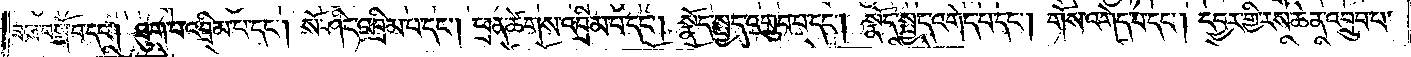ཟས་བསྒོ་བ་དང༌། ཐུག་པ་འབྲིམ་པ་དང༌། སོ་ཤིང་འབྲིམ་པ་དང༌། ཕྲན་ཚེགས་འབྲིམ་པ་དང༌། སྣོད་སྤྱད་འགྲུབ་པ་དང༌། སྣོད་སྤྱད་འགེད་པ་དང༌། གོས་འགེད་པ་དང༌། དབྱར་གྱི་རས་ཆེན་འབྲུབ་པ་
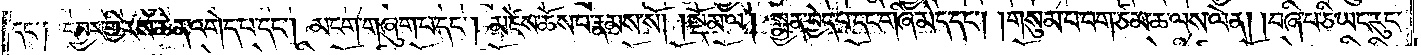དང༌། དབྱར་གྱི་རས་ཆེན་འགེད་པ་དང༌། མངག་གཞུག་པ་དང༌། མཛེས་ཆོས་པ་རྣམས་སོ།    །སྡོམ་ལ། སྨྱན་བྱེད་པ་དང་གཞི་མེད་དང༌། གསུམ་པ་བག་ཙམ་ཆ་ལས་ལེན། །བཞི་པ་ཅི་ཡང་རུང་
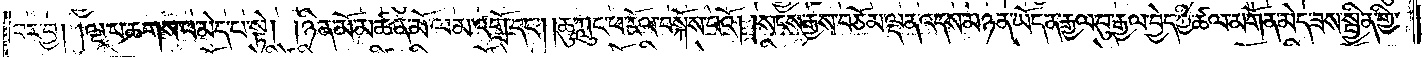བར་བྱ། །ལྔ་པ་ཆགས་པ་མེད་པ་སྟེ། །ཉིན་མོ་མཚན་མོ་ལམ་འགྲོ་དང༌། །ཆུ་ཀླུང་ཕ་རོལ་བསྐོས་པའོ།    །སངས་རྒྱས་བཅོམ་ལྡན་འདས་མཉན་ཡོད་ན་རྒྱལ་བུ་རྒྱལ་བྱེད་ཀྱི་ཚལ་མགོན་མེད་ཟས་སྦྱིན་གྱི་
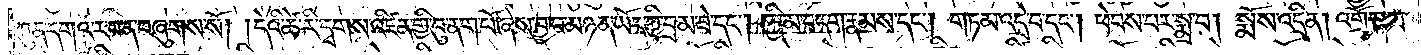ཀུན་དགའ་ར་བ་ན་བཞུགས་སོ། །དེའི་ཚེ་རི་དྭགས་འཛིན་གྱི་བུ་ནག་པོ་ཞེས་བྱ་བ་མཉན་ཡོད་ཀྱི་བྲམ་ཟེ་དང༌། ཁྱིམ་བདག་རྣམས་དང༌། གཏམ་འདྲེ་བ་དང༌། ཕེབས་པར་སྨྲ་བ། སྨོས་འདྲི་ན། འགྲོགས་
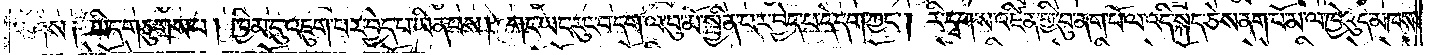བཤེས། ཡིད་གཅུགས་པ། ཁྱིམ་དུ་འཇུག་པར་བྱེད་པ་ཡིན་པས། གང་ཡང་རུང་བ་དག་ལ་བུ་མོ་སྦྱིན་པར་བྱེད་པ་དེ་དག་ཀྱང༌། རི་དྭགས་འཛིན་གྱི་བུ་ནག་པོ་ལ་འདི་སྐད་ཅེས་ནག་པོ་མ་ལ་ཁྱེའུ་དེ་མཁས་
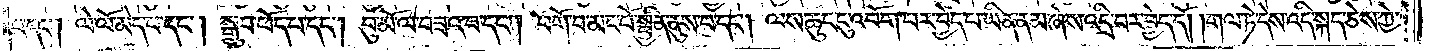པ་དང༌། ལེ་ལོ་མེད་པ་དང༌། སྒྲུབ་ཕོད་པ་དང༌། བུ་མོ་ལ་བཟའ་བ་དང༌། བགོ་བ་མང་པོ་སྤྱིན་ནུས་པ་དང༌། ལས་ཆུང་ངུ་འབོག་པར་བྱེད་པ་ཡིན་ནམ་ཞེས་འདྲི་བར་བྱེད་དོ། །གལ་ཏེ་དེས་འདི་སྐད་ཅེས་ཀྱི་
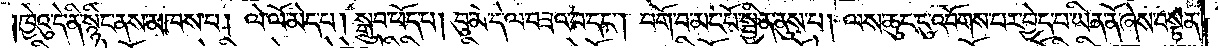ཁྱེའུ་དེ་ནི་སྙིང་ནས་མཁས་པ། ལེ་ལོ་མེད་པ། སྒྲུབ་ཕོད་པ། བུ་མོ་དེ་ལ་བཟའ་བ་དང༌། བགོ་བ་མང་པོ་སྦྱིན་ནུས་པ། ལས་ཆུང་ངུ་འབོགས་པར་བྱེད་པ་ཡིན་ནོ་ཞེས་བསྟན་
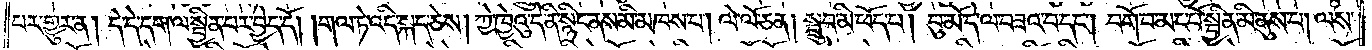པར་གྱུར་ན། དེ་དེ་དག་ལ་སྦྱིན་པར་བྱེད་དོ། །གལ་ཏེ་འདི་སྐད་ཅེས། ཀྱེ་ཁྱེའུ་དེ་ནི་སྙིང་ནས་མི་མཁས་པ། ལེ་ལོ་ཅན། སྒྲུབ་མི་ཕོད་པ། བུ་མོ་དེ་ལ་བཟའ་བ་དང༌། བགོ་བ་མང་པོ་སྦྱིན་མི་ནུས་པ། ལས་
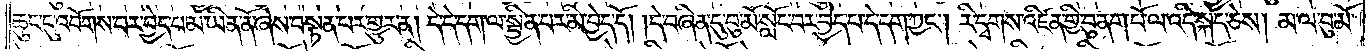ཆུང་ངུ་འབོགས་པར་བྱེད་པ་མ་ཡིན་ནོ་ཞེས་བསྟན་པར་གྱུར་ན། དེ་དེ་དག་ལ་སྦྱིན་པར་མི་བྱེད་དོ། །དེ་བཞིན་དུ་བུ་མོ་སློང་བར་བྱེད་པ་དེ་དག་ཀྱང༌། རི་དྭགས་འཛིན་གྱི་བུ་ནག་པོ་ལ་འདི་སྐད་ཅེས། མ་ལ་བུ་མོ་
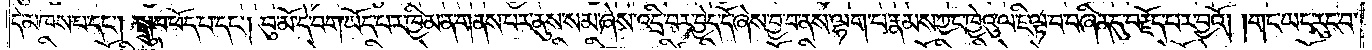དེ་མཁས་པ་དང༌། སྒྲུབ་ཕོད་པ་དང༌། བུ་མོ་དེ་བག་ཡོད་པར་ཁྱིམ་ན་གནས་པར་ནུས་སམ་ཞེས་འདྲི་བར་བྱེད་དོ་ཞེས་བྱ་བ་ནས་ལྷག་པ་རྣམས་ཀྱང་ཁྱེའུ་ལ་ཇི་ལྟ་བ་བཞིན་དུ་བརྗོད་པར་བྱའོ། །གང་ཡང་རུང་བ་
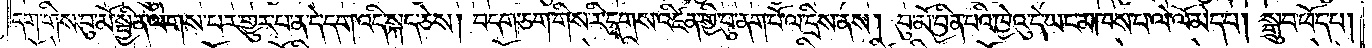དག་གིས་བུ་མོ་སྦྱིན་ལེགས་པར་གྱུར་པ་ན་དེ་དག་འདི་སྐད་ཅེས། བདག་ཅག་གིས་རི་དྭགས་འཛིན་གྱི་བུ་ནག་པོ་ལ་དྲིས་ནས། བུ་མོ་བྱིན་པའི་ཁྱེའུ་དེ་ཡང་མཁས་པ་ལེ་ལོ་མེད་པ། སྒྲུབ་ཕོད་པ།
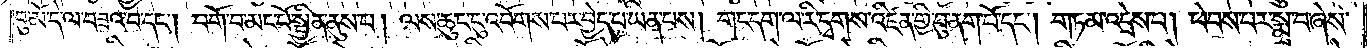བུ་མོ་དེ་ལ་བཟའ་བ་དང༌། བགོ་བ་མང་པོ་སྦྱིན་ནུས་པ། ལས་ཆུང་ངུ་འབོགས་པར་བྱེད་པ་ཡིན་པས། གང་དག་ལ་རི་དྭགས་འཛིན་གྱི་བུ་ནག་པོ་དང༌། གཏམ་འདྲེས་པ། ཕེབས་པར་སྨྲ་བ་ཞེས་
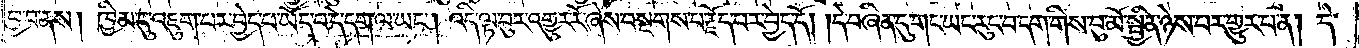བྱ་བ་ནས། ཁྱིམ་དུ་འཇུག་པར་བྱེད་པ་ཡོད་པ་དེ་དག་ལ་ཡང༌། འདི་ལྟ་བུར་འགྱུར་རོ་ཞེས་བསྔགས་པ་བརྗོད་པར་བྱེད་དོ། །དེ་བཞིན་དུ་གང་ཡང་རུང་བ་དག་གིས་བུ་མོ་སྦྱིན་ཉེས་པར་གྱུར་པ་ན། དེ་
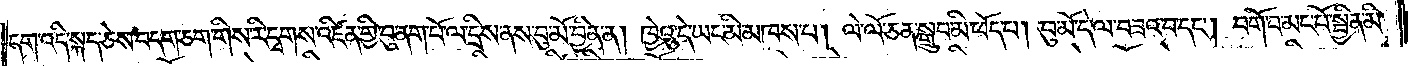དག་འདི་སྐད་ཅེས་བདག་ཅག་གིས་རི་དྭགས་འཛིན་གྱི་བུ་ནག་པོ་ལ་དྲིས་ནས་བུ་མོ་བྱིན་ན། ཁྱེའུ་དེ་ཡང་མི་མཁས་པ། ལེ་ལོ་ཅན་སྒྲུབ་མི་ཕོད་པ། བུ་མོ་དེ་ལ་བཟའ་བ་དང༌། བགོ་བ་མང་པོ་སྦྱིན་མི་
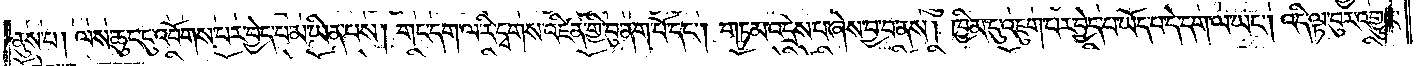ནུས་པ། ལས་ཆུང་ངུ་འབོགས་པར་བྱེད་པ་མ་ཡིན་པས། གང་དག་ལ་རི་དྭགས་འཛིན་གྱི་བུ་ནག་པོ་དང༌། གཏམ་འདྲེས་པ་ཞེས་བྱ་བ་ནས། ཁྱིམ་དུ་འཇུག་པར་བྱེད་པ་ཡོད་པ་དེ་དག་ལ་ཡང༌། འདི་ལྟ་བུར་འགྱུར་
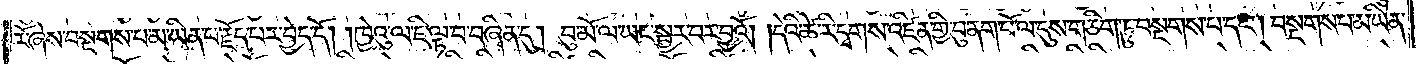རོ་ཞེས་བསྔགས་པ་མ་ཡིན་པ་རྗོད་པར་བྱེད་དོ། །ཁྱེའུ་ལ་ཇི་ལྟ་བ་བཞིན་དུ། བུ་མོ་ལ་ཡང་སྦྱར་བར་བྱའོ། །དེའི་ཚེ་རི་དྭགས་འཛིན་གྱི་བུ་ནག་པོ་ལ་དུས་གཅིག་ཏུ་བསྔགས་པ་དང༌། བསྔགས་པ་མ་ཡིན་
